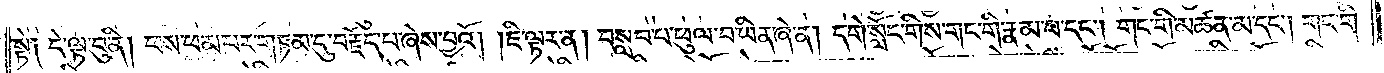སྟེ༑ དེ་ལྟ་བུ་ནི། ཕས་ཕམ་པར་གཏམ་དུ་བརྗོད་པ་ཞེས་བྱའོ། །ཇི་ལྟར་ན། བསླབ་པ་ཕུལ་བ་ཡིན་ཞེ་ན། དགེ་སློང་གིས་གང་གི་རྣམ་པ་དང༌། གང་གི་མཚན་མ་དང༌། གང་གི་
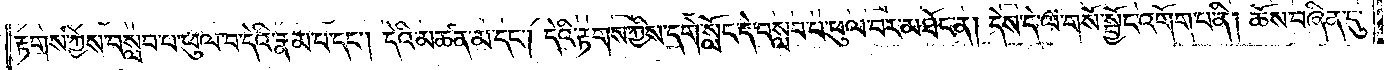རྟགས་ཀྱིས་བསླབ་པ་ཕུལ་བ་དེའི་རྣམ་པ་དང༌། དེའི་མཚན་མ་དང༌། དེའི་རྟགས་ཀྱིས་དགེ་སློང་དེ་བསླབ་པ་ཕུལ་བར་མཐོང་ན། དེས་དེ་ལ་གསོ་སྦྱོང་འགོག་པ་ནི། ཆོས་བཞིན་དུ་
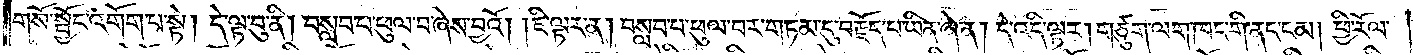གསོ་སྦྱོང་འགོག་པ་སྟེ། དེ་ལྟ་བུ་ནི། བསླབ་པ་ཕུལ་བ་ཞེས་བྱའོ། །ཇི་ལྟར་ན། བསླབ་པ་ཕུལ་བར་གཏམ་དུ་བརྗོད་པ་ཡིན་ཞེ་ན། དེ་འདི་ལྟར། གཙུག་ལག་ཁང་གི་ནང་ངམ། ཕྱི་རོལ་
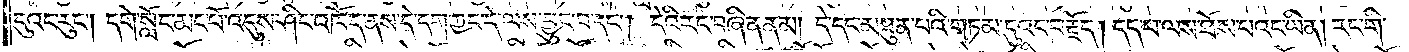དུའང་རུང༌། དགེ་སློང་མང་པོ་འདུས་ཤིང་འཁོད་ནས་དེ་དག་ཀྱང་དེ་ལས་བྱུང་བ་དང༌། དེའི་རང་བཞིན་ནམ། དེ་དང་མཐུན་པའི་གཏམ་དུའང་བརྗོད། དད་པ་ལས་ཐོས་པའང་ཡིན། རང་གི་
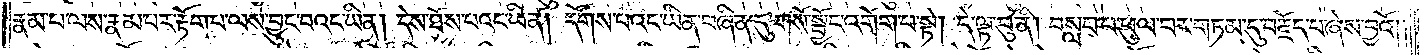རྣམ་པ་ལས་རྣམ་པར་རྟོག་པ་ལས་བྱུང་བའང་ཡིན། དེས་ཐོས་པའང་ཡིན། དོགས་པའང་ཡིན་བཞིན་དུ་གསོ་སྦྱོང་འགོག་པ་སྟེ། དེ་ལྟ་བུ་ནི། བསླབ་པ་ཕུལ་བར་གཏམ་དུ་བརྗོད་པ་ཞེས་བྱའོ། །
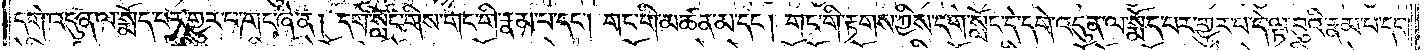དགེ་འདུན་ལ་སྨོད་པར་གྱུར་བ་གང་ཞེ་ན། དགེ་སློང་གིས་གང་གི་རྣམ་པ་དང༌། གང་གི་མཚན་མ་དང༌། གང་གི་རྟགས་ཀྱིས་དགེ་སློང་དེ་དགེ་འདུན་ལ་སྨོད་པར་གྱུར་པ་དེ་ལྟ་བུའི་རྣམ་པ་དང་
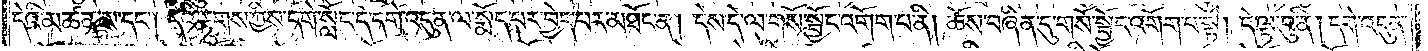དེའི་མཚན་མ་དང༌། དེའི་རྟགས་ཀྱིས་དགེ་སློང་དེ་དགེ་འདུན་ལ་སྨོད་པར་བྱེད་པར་མཐོང་ན། དེས་དེ་ལ་གསོ་སྦྱོང་འགོག་པ་ནི། ཆོས་བཞིན་དུ་གསོ་སྦྱོང་འགོག་པ་སྟེ། དེ་ལྟ་བུ་ནི། དགེ་འདུན་
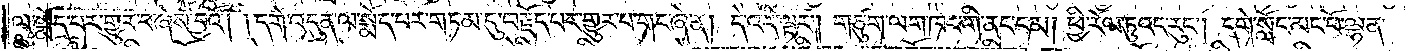ལ་སྨོད་པར་གྱུར་པ་ཞེས་བྱའོ། །དགེ་འདུན་ལ་སྨོད་པར་གཏམ་དུ་བརྗོད་པར་གྱུར་པ་གང་ཞེ་ན། དེ་འདི་ལྟར། གཙུག་ལག་ཁང་གི་ནང་ངམ། ཕྱི་རོལ་ཏུའང་རུང༌། དགེ་སློང་མང་པོ་ལྷན་
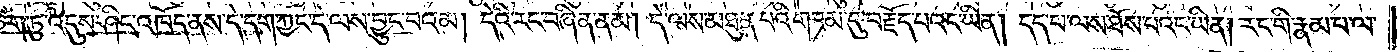ཅིག་ཏུ་འདུས་ཤིང་འཁོད་ནས་དེ་དག་ཀྱང་དེ་ལས་བྱུང་བའམ། དེའི་རང་བཞིན་ནམ། དེ་ལས་མཐུན་པའི་གཏམ་དུ་བརྗོད་པའང་ཡིན། དད་པ་ལས་ཐོས་པའང་ཡིན། རང་གི་རྣམ་པ་ལ་
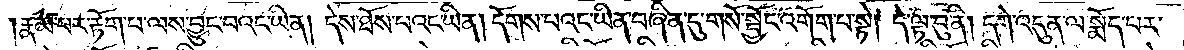རྣམ་པར་རྟོག་པ་ལས་བྱུང་བའང་ཡིན། དེས་ཐོས་པའང་ཡིན། དོགས་པའང་ཡིན་བཞིན་དུ་གསོ་སྦྱོང་འགོག་པ་སྟེ། དེ་ལྟ་བུ་ནི། དགེ་འདུན་ལ་སྨོད་པར་
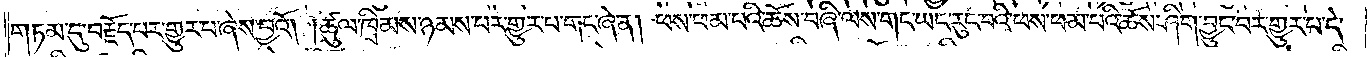གཏམ་དུ་བརྗོད་པར་གྱུར་པ་ཞེས་བྱའོ། །ཚུལ་ཁྲིམས་ཉམས་པར་གྱུར་པ་གང་ཞེ་ན། ཕས་ཕམ་པའི་ཆོས་བཞི་ལས་གང་ཡང་རུང་བའི་ཕས་ཕམ་པའི་ཆོས་ཤིག་བྱུང་བར་གྱུར་པ་དེ་
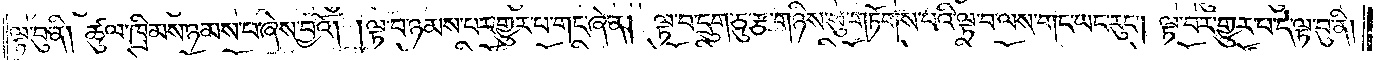ལྟ་བུ་ནི། ཚུལ་ཁྲིམས་ཉམས་པ་ཞེས་བྱའོ། །ལྟ་བ་ཉམས་པར་གྱུར་པ་གང་ཞེ་ན། ལྟ་བ་དྲུག་ཅུ་རྩ་གཉིས་སུ་གཏོགས་པའི་ལྟ་བ་ལས་གང་ཡང་རུང༌། ལྟ་བར་གྱུར་པ་དེ་ལྟ་བུ་ནི།
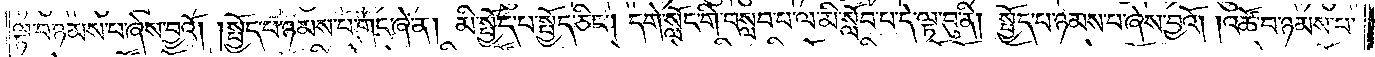ལྟ་བ་ཉམས་པ་ཞེས་བྱའོ། །སྤྱོད་པ་ཉམས་པ་གང་ཞེ་ན། མི་སྤྱོད་པ་སྤྱོད་ཅིང༌། དགེ་སློང་གི་བསླབ་པ་ལ་མི་སློབ་པ་དེ་ལྟ་བུ་ནི། སྤྱོད་པ་ཉམས་པ་ཞེས་བྱའོ། །འཚོ་བ་ཉམས་པ་
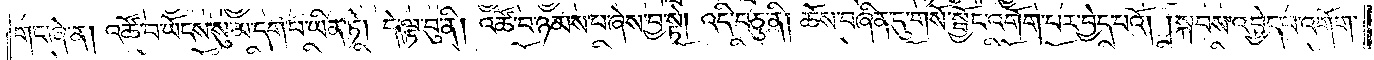གང་ཞེ་ན། འཚོ་བ་ཡོངས་སུ་མ་དག་པ་ཡིན་ཏེ། དེ་ལྟ་བུ་ནི། འཚོ་བ་ཉམས་པ་ཞེས་བྱ་སྟེ། འདི་བཅུ་ནི། ཆོས་བཞིན་དུ་གསོ་སྦྱོང་འགོག་པར་བྱེད་པའོ། །སྐབས་འབྱེད་པ་འགོག་
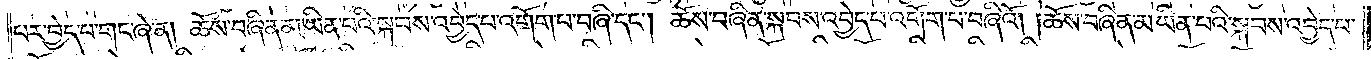པར་བྱེད་པ་གང་ཞེ་ན། ཆོས་བཞིན་མ་ཡིན་པའི་སྐབས་འབྱེད་པ་འགོག་པ་བཞི་དང༌། ཆོས་བཞིན་སྐབས་འབྱེད་པ་འགོག་པ་བཞིའོ། །ཆོས་བཞིན་མ་ཡིན་པའི་སྐབས་འབྱེད་པ་
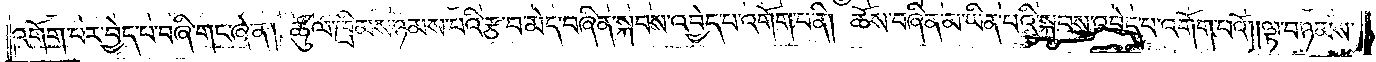འགོག་པར་བྱེད་པ་བཞི་གང་ཞེ་ན། ཚུལ་ཁྲིམས་ཉམས་པའི་རྩ་བ་མེད་བཞིན་སྐབས་འབྱེད་པ་འགོག་པ་ནི། ཆོས་བཞིན་མ་ཡིན་པའི་སྐབས་འབྱེད་པ་འགོག་པའོ། །ལྟ་བ་ཉམས་
